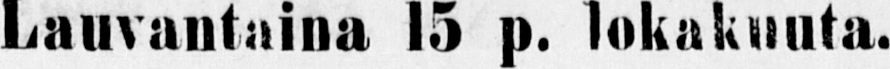Lauvantaina 15 p. lokakuuta.
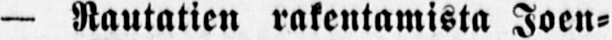— Rautatien rakentamista Joen-
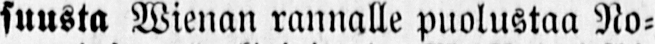suusta Wienan rannalle puolustaa No-
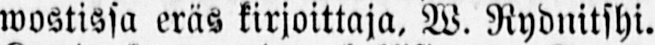wostissa eräs kirjoittaja, W. Rydnitshi.
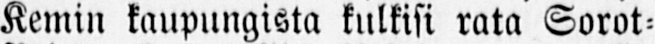Kemin kaupungista kulkisi rata Sorot-
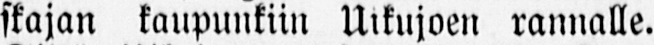skajan kaupunkiin Uikujoen rannalle.
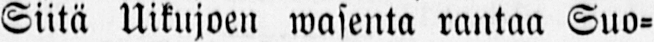Siitä Uikujoen wasenta rantaa Suo-
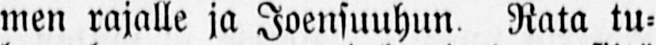men rajalle ja Joensuuhun. Rata tu-
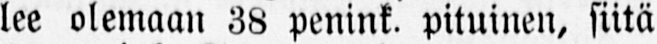lee olemaan 38 penink. pituinen, siitä
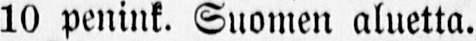10 penink. Suomen aluetta.
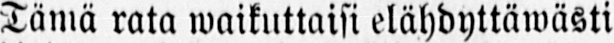Tämä rata waikuttaisi elähdyttäwasti
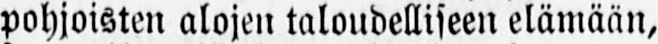pohjoisten alojen taloudelliseen elämään,
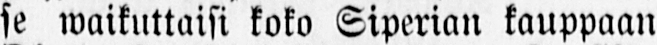se waikuttaisi koko Siperian kauppaan
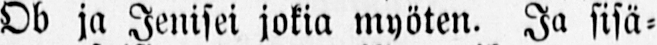Ob ja Jenisei jokia myöten. Ja sisä-
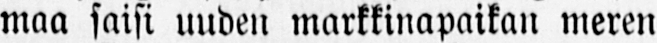maa saisi uuden markkinapaikan meren
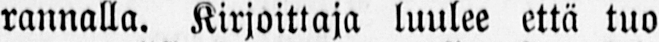rannalla. Kirjoittaja luulee että tuo
